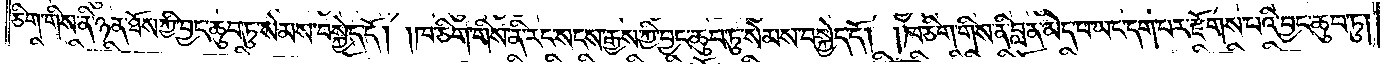ཅིག་གིས་ནི་ཉན་ཐོས་ཀྱི་བྱང་ཆུབ་ཏུ་སེམས་བསྐྱེད་དོ། །ཁ་ཅིག་གིས་ནི་རང་སངས་རྒྱས་ཀྱི་བྱང་ཆུབ་ཏུ་སེམས་བསྐྱེད་དོ། །ཁ་ཅིག་གིས་ནི་བླ་ན་མེད་པ་ཡང་དག་པར་རྫོགས་པའི་བྱང་ཆུབ་ཏུ།
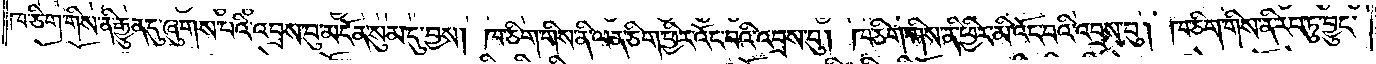ཁ་ཅིག་གིས་ནི་རྒྱུན་དུ་ཞུགས་པའི་འབྲས་བུ་མངོན་སུམ་དུ་བྱས། ཁ་ཅིག་གིས་ནི་ལན་ཅིག་ཕྱིར་འོང་བའི་འབྲས་བུ། ཁ་ཅིག་གིས་ནི་ཕྱིར་མི་འོང་བའི་འབྲས་བུ། ཁ་ཅིག་གིས་ནི་རབ་ཏུ་བྱུང་
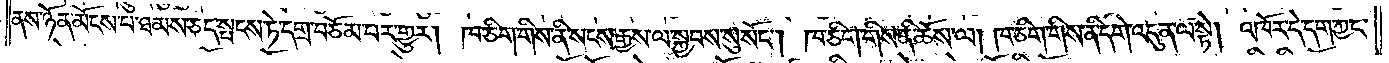ནས་ཉོན་མོངས་པ་ཐམས་ཅད་སྤངས་ཏེ་དགྲ་བཅོམ་པར་གྱུར། ཁ་ཅིག་གིས་ནི་སངས་རྒྱས་ལ་སྐྱབས་སུ་སོང༌། །ཁ་ཅིག་གིས་ནི་ཆོས་ལ། ཁ་ཅིག་གིས་ནི་དགེ་འདུན་ལ་སྟེ། འཁོར་དེ་དག་ཀྱང་
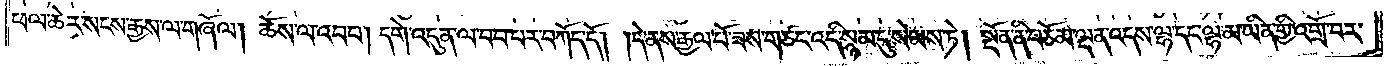ཕལ་ཆེར་སངས་རྒྱས་ལ་གཞོལ། །ཆོས་ལ་འབབ། དགེ་འདུན་ལ་འབབ་པར་བཀོད་དོ། །དེ་ནས་རྒྱལ་པོ་ཟས་གཙང་འདི་སྙམ་དུ་སེམས་ཏེ། སྔོན་ནི་བཅོམ་ལྡན་འདས་ལྷ་དང་ལྷ་མ་ཡིན་གྱི་འགྲོ་བར་
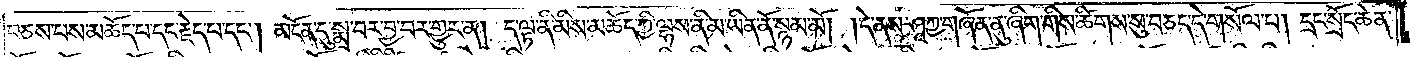བཅས་པས་མཆོད་པ་དང་བརྗེད་པ་དག། མངོན་དུ་སྨྲ་བར་བྱ་བར་གྱུར་ན། །ད་ལྟ་ནི་མིས་མཆོད་ཀྱི་ལྷས་ནི་མ་ཡིན་ནོ་སྙམ་མོ། །དེ་ནས་ཤཱཀྱ་གཞོན་ནུ་ཞིག་གིས་ཚིགས་སུ་བཅད་དེ་གསོལ་པ། །དྲང་སྲོང་ཆེན་
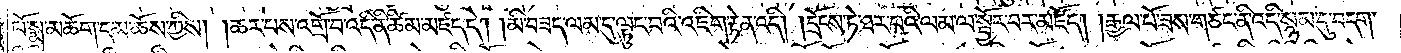པོ་སྨྲ་མཆོག་དམ་ཆོས་ཀྱིས། །ཆར་པས་འགྲོ་བ་འདི་ནི་ཚིམ་མཛད་དེ། །མི་བཟད་ལམ་དུ་ལྟུང་བའི་འཇིག་རྟེན་འདི། །དྲོངས་ཏེ་ཐར་པའི་ལམ་ལ་སྦྱར་བར་མཛོད། །རྒྱལ་པོ་ཟས་གཙང་ནི་འདི་སྙམ་དུ་བདག་
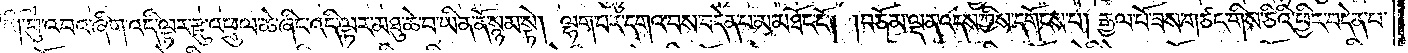གི་བུ་འབའ་ཞིག་འདི་ལྟར་རྫུ་འཕྲུལ་ཆེ་ཞིང་འདི་ལྟར་མཐུ་ཆེ་བ་ཡིན་ནོ་སྙམ་སྟེ། ལྷག་པར་དགའ་བས་བདེན་པ་མཐོང་ངོ༌། །བཅོམ་ལྡན་འདས་ཀྱིས་དགོངས་པ། །རྒྱལ་པོ་ཟས་གཙང་གིས་ཅིའི་ཕྱིར་བདེན་པ་
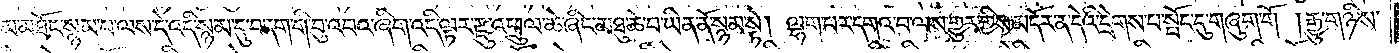མ་མཐོང་སྙམ་པ་ལས་དེ་འདི་སྙམ་དུ་བདག་གི་བུ་འབའ་ཞིག་འདི་ལྟར་རྫུ་འཕྲུལ་ཆེ་ཞིང་མཐུ་ཆེ་བ་ཡིན་ནོ་སྙམ་སྟེ། ལྷག་པར་དགའ་བ་ལས་གྱུར་གྱིས་མདོར་ན་དེའི་དྲེགས་པ་སྤོང་དུ་གཞུག་གོ །རྒྱུ་གཉིས་
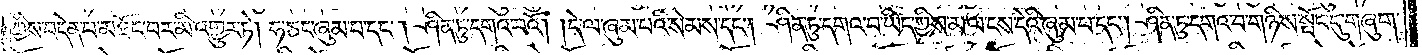ཀྱིས་བདེན་པ་མཐོང་བར་མི་འགྱུར་ཏེ། ཧ་ཅང་ཞུམ་པ་དང༌། ཤིན་ཏུ་དགའ་བའོ། །དེ་ལ་ཞུམ་པའི་སེམས་དང༌། ཤིན་ཏུ་དགའ་བ་ཡིད་ཀྱིས་མ་ལ་ངས་དེའི་ཞུམ་པ་དང༌། ཤིན་ཏུ་དགའ་བ་གཉིས་སྤོང་དུ་གཞུག་
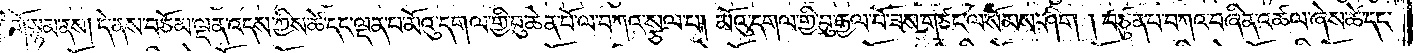གོ་སྙམ་ནས། །དེ་ནས་བཅོམ་ལྡན་འདས་ཀྱིས་ཚེ་དང་ལྡན་པ་མོའུ་དགལ་གྱི་བུ་ཆེན་པོ་ལ་བཀའ་སྩལ་པ། མོའུ་དགལ་གྱི་བུ་རྒྱལ་པོ་ཟས་གཙང་ལ་སོམས་ཤིག །བཙུན་པ་བཀའ་བཞིན་འཚལ་ཞེས་ཚེ་དང་
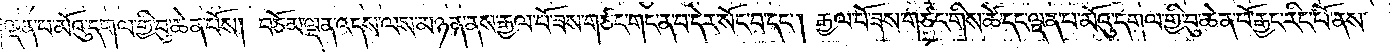ལྡན་པ་མོའུ་དགལ་གྱི་བུ་ཆེན་པོས། །བཅོམ་ལྡན་འདས་ལས་མཉན་ནས་རྒྱལ་པོ་ཟས་གཙང་གང་བ་ན་བདེར་སོང་བ་དང༌། རྒྱལ་པོ་ཟས་གཙང་གིས་ཚེ་དང་ལྡན་པ་མོའི་དགལ་གྱི་བུ་ཆེན་པོ་རྒྱང་རིང་པོ་ནས་
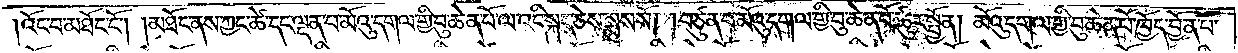།འོང་བ་མཐོང་ངོ༌། །མཐོང་ནས་ཀྱང་ཚེ་དང་ལྡན་པ་མོའུ་དགལ་གྱི་བུ་ཆེན་པོ་ལ་འདི་སྐད་ཅེས་སྨྲས་སོ། །བཙུན་པ་མོའུ་དགལ་གྱི་བུ་ཆེན་པོ་ཚུར་སྤྱོན། །མོའུ་དགལ་གྱི་བུ་ཆེན་པོ་ཁྱོད་བྱོན་པ་
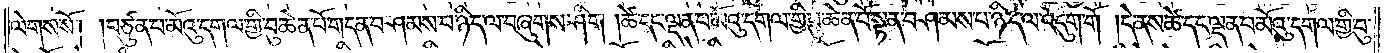ལེགས་སོ། །བཙུན་པ་མོའུ་དགལ་གྱི་བུ་ཆེན་པོ་གདན་བཤམས་པ་ཉིད་ལ་བཞུགས་ཤིག །ཚེ་དང་ལྡན་པ་མོའུ་དགལ་གྱི་བུ་ཆེན་པོ་སྟན་བཤམས་པ་ཉིད་ལ་འདུག་གོ །དེ་ནས་ཚེ་དང་ལྡན་པ་མོའུ་དགལ་གྱི་བུ་
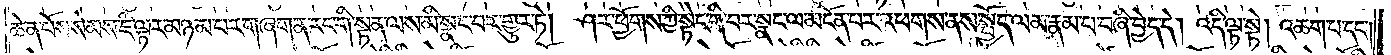ཆེན་པོས་སེམས་ཇི་ལྟར་མཉམ་པར་གཞག་ན་རང་གི་སྟན་ལས་མི་སྣང་བར་གྱུར་ཏེ། ཤར་ཕྱོགས་ཀྱི་སྟེང་གི་བར་སྣང་ལ་མངོན་པར་འཕགས་ནས་སྤྱོད་ལམ་རྣམ་པ་བཞི་བྱེད་དེ། འདི་ལྟ་སྟེ། འཆག་པ་དང་
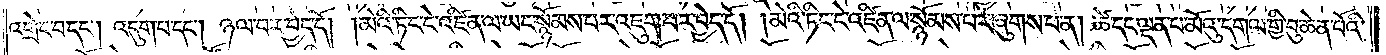འགྲེང་བ་དང༌། འདུག་པ་དང༌། ཉལ་བར་བྱེད་དོ། །མེའི་ཏིང་ངེ་འཛིན་ལ་ཡང་སྙོམས་པར་འཇུག་པར་བྱེད་དོ། །མེའི་ཏིང་ངེ་འཛིན་ལ་སྙོམས་པར་ཞུགས་པ་ན། ཚེ་དང་ལྡན་པ་མོའུ་གལ་གྱི་བུ་ཆེན་པོའི་
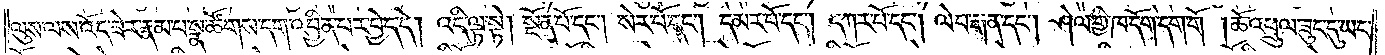ལུས་ལས་འོད་ཟེར་རྣམ་པ་སྣ་ཚོགས་དག་འབྱིན་པར་བྱེད་དེ། འདི་ལྟ་སྟེ། སྔོན་པོ་དང༌། སེར་པོ་དང༌། དམར་པོ་དང༌། དཀར་པོ་དང༌། ལེབ་རྒན་དང༌། ཤེལ་གྱི་ཁ་དོག་དག་གོ །ཆོ་འཕྲུལ་ཟུང་དུ་ཡང་
